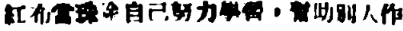紅布當珠除自己努力學習，幫助別人作
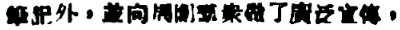筆記外，並向周圍羣衆作了廣泛宣傳，
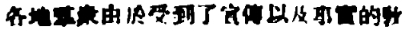各地羣衆由於受到了宣傳以及事實的敎
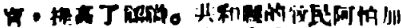育，提高了認識。共和縣的牧民阿怕加
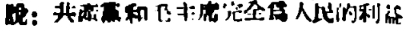說：共產黨和毛主席完全爲人民的利益
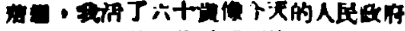着想，我活了六十歲像今天的人民政府
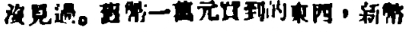沒見過。舊幣一萬元買到的東西，新幣
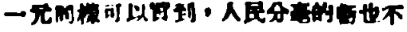一元同樣可以買到，人民分毫的虧也不
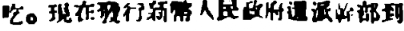吃。現在發行新幣人民政府還派幹部到
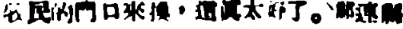牧民的門口來換，這眞太好了。祁連縣
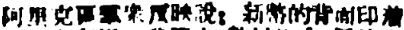阿里克區羣衆反映說：新幣的背面印着
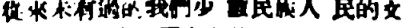從來未有過的我們少 數民族人 民的文
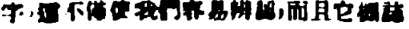字，這不僅使我們容易辨認，而且它標誌
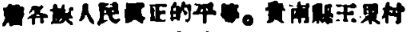着各族人民眞正的平等。貴南縣王果村
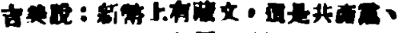吉美說：新幣上有藏文，這是共產黨、
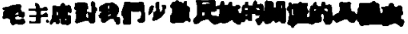毛主席對我們少數民族的關懷的具體表
